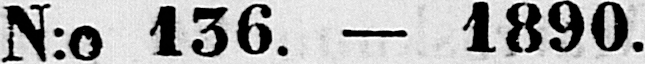N:o 136. — 1890.
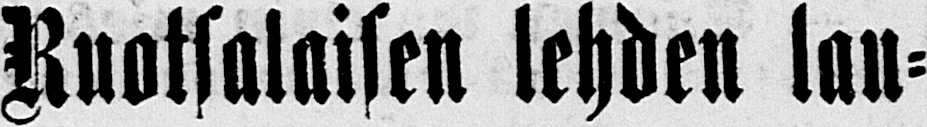Ruotsalaisen lehden lau-
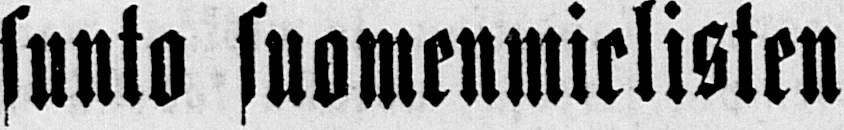sunto suomenmielisten
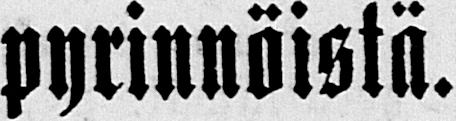pyrinnöistä.
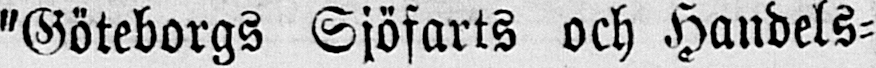"Göteborgs Sjöfarts och Handels-
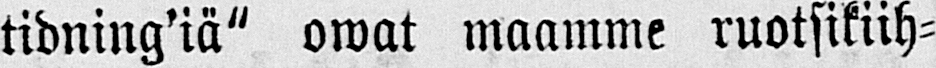tidning'iä" owat maamme ruotsikiih-
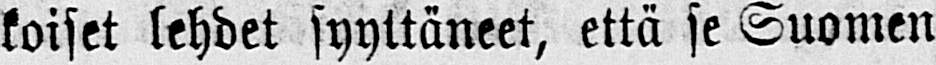koiset lehdet syyttäneet, että se Suomen
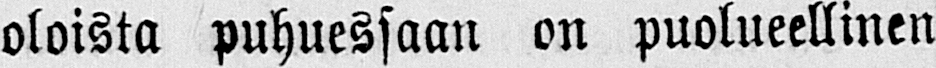oloista puhuessaan on puolueellinen
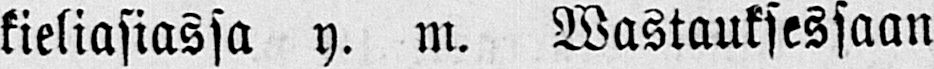kieliasiassa y. m. Wastauksessaan
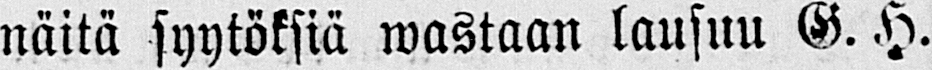näitä syytöksiä wastaan lausuu G. H.
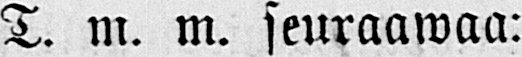T. m. m. seuraawaa:
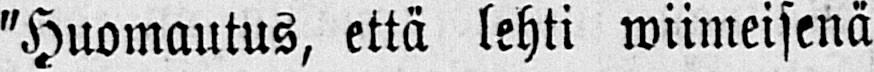"Huomautus, että lehti wiimeisenä
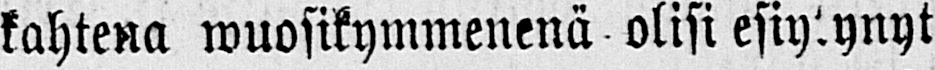kahtena wuosikymmenenä olisi esiytynyt
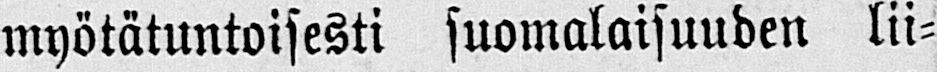myötätuntoisesti suomalaisuuden lii-
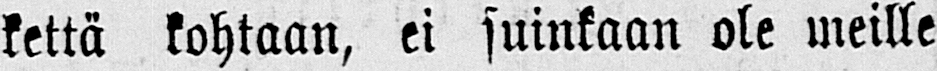kettä kohtaan, ei suinkaan ole meille
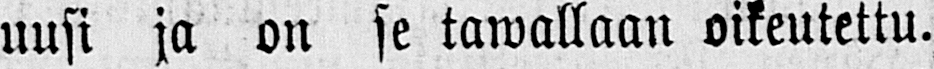uusi ja on se tawallaan oikeutettu.
